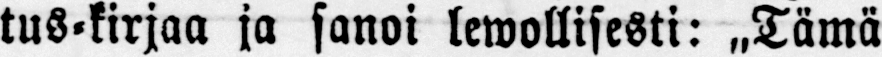tus-kirjaa ja sanoi lewollisesti: „Tämä
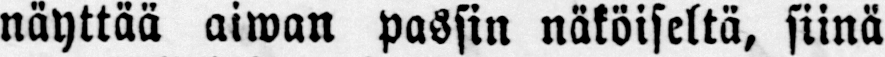näyttää aiwan passin näköiseltä, siinä
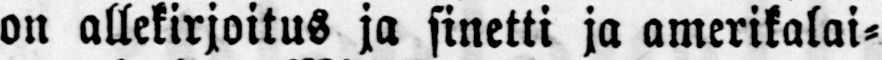on allekirjoitus ja sinetti ja amerikalai-
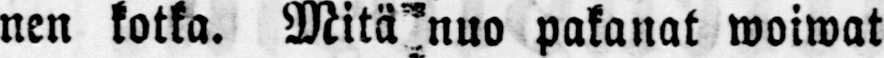nen kotka. Mitä@nuo pakanat woiwat
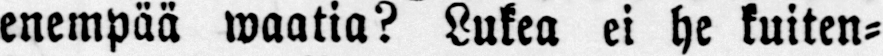enempää waatia? Lukea ei he kuiten-
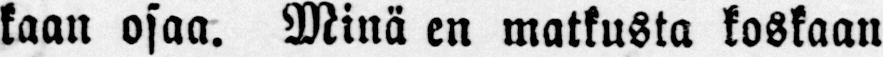kaan osaa. Minä en matkusta koskaan
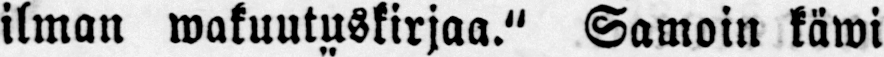ilman wakuutuskirjaa." Samoin käwi
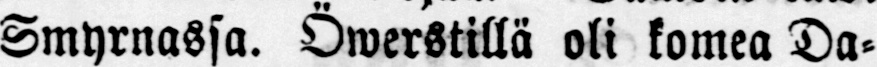Smyrnassa. Öwerstillä oli komea Da-
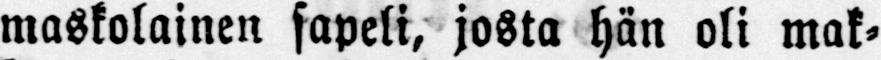maskolainen sapeli, josta hän oli mak-
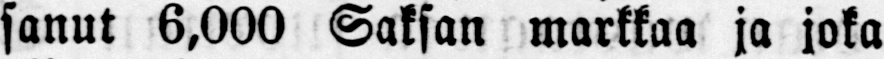sanut 6,000 Saksan markkaa ja joka
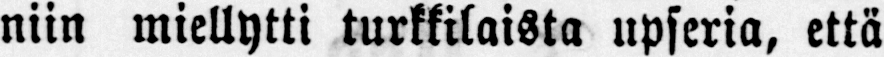niin miellytti turkkilaista upseria, että
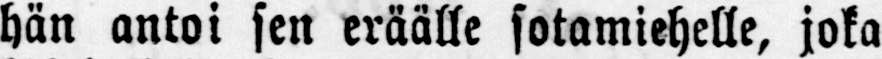hän antoi sen eräälle sotamiehelle, joka
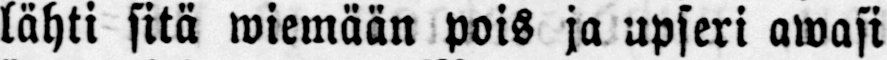lähti sitä wiemään pois ja upseri awasi
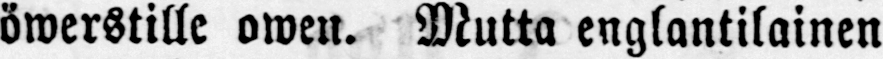öwerstille owen. Mutta englantilainen
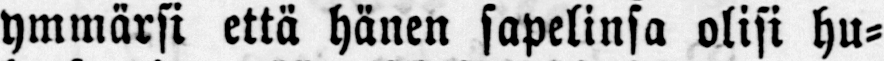ymmärsi että hänen sapelinsa olisi hu-
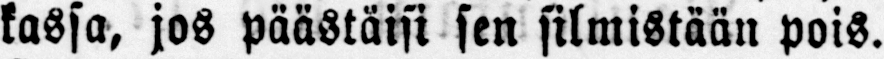kassa, jos päästäisi sen silmistään pois.
